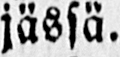jässä.
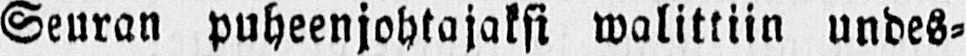Seuran puheenjohtajaksi walittiin undes-
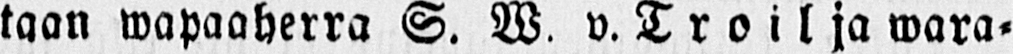taan wapaaherra S. W. v. Troil ja wara-
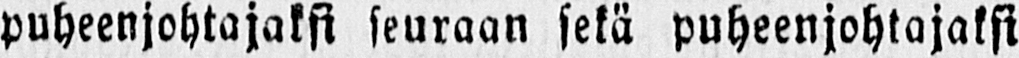puheenjohtajaksi seuraan sekä puheenjohtajaksi
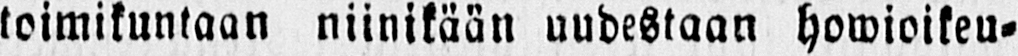toimikuntaan niinikään uudestaan howioikeu-
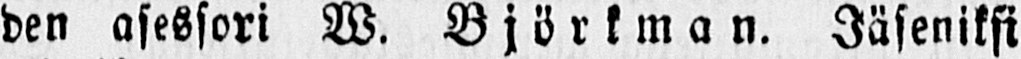den asessori W. Björkman. Jäseniksi
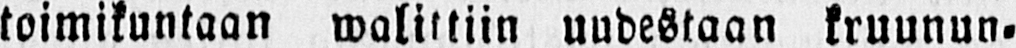toimikuntaan walittiin uudestaan kruunun-
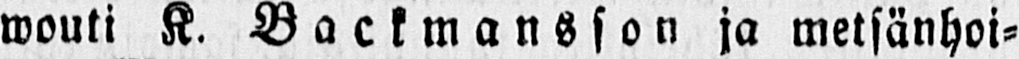wouti K. Backmansson ja metsänhoi-
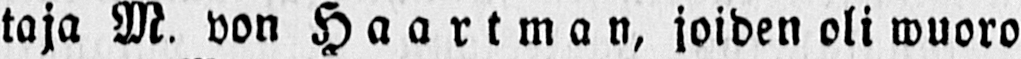taja M. von Haartman, joiden oli wuoro
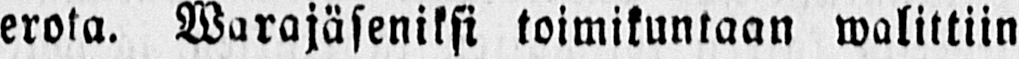erota. Warajäseniksi toimikuntaan walittiin
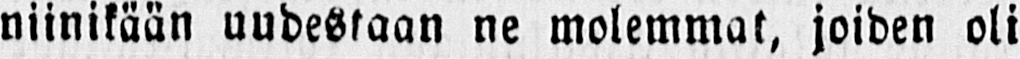niinikään uudestaan ne molemmat, joiden oli
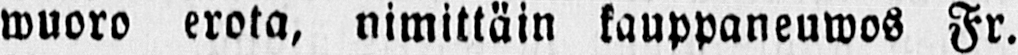wuoro erota, nimittäin kauppaneuwos Fr.
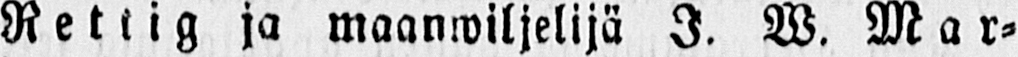Rettig ja maanwiljelijä I. W. Mar-
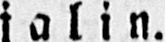j alin.
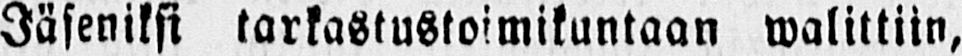Jäseniksi tarkastustoimikuntaan walittiin,
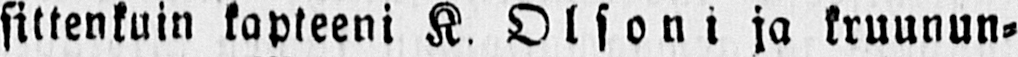sittenkuin kapteeni K. Olsoni ja kruunun-
